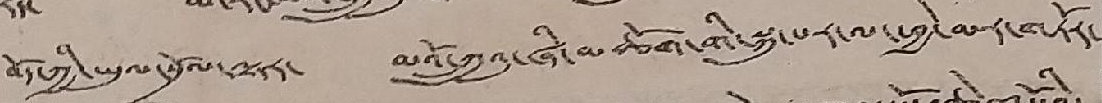བོད་ཀྱི་ཡུལ་སྲོལ་ལྟར་ མའོ་ཀྲུའུ་ཞི་མཆོག་གི་སྐུ་པར་ལ་ཕྱེ་མར་གཏོར་
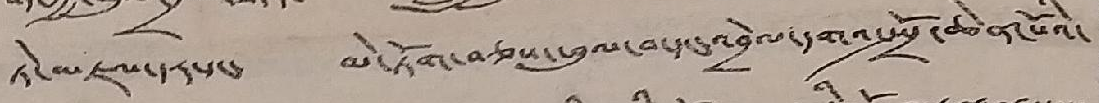ཏེ་མཇལ་དར་དང་ མེ་ཏོག་བཅས་ཕུལ་བ་དང་འབྲེལ་དགའ་སྤྲོ་ཆེན་པོའི་
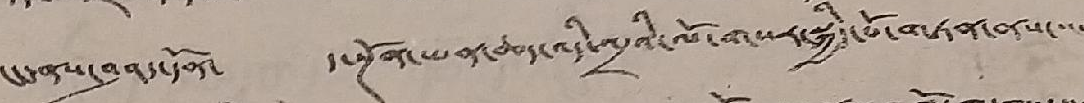ངང་ནས་བཤད་དོན་ ད་སྔོན་ཡན་ཆད་འདི་འདྲའི་ལོ་གསར་སྐྱིད་པོ་གཏན་ནས་་་་
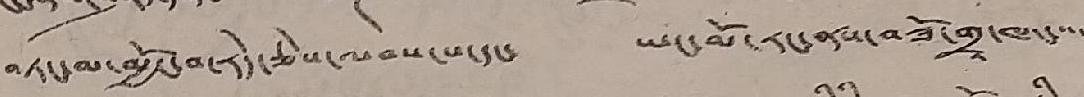བཏང་མ་མྱོང་བ་རེད་ཅེས་ལབས་པ་དང་ ཡང་མོ་རང་ནས་བཟོ་གྲྭ་ཁང་་་་
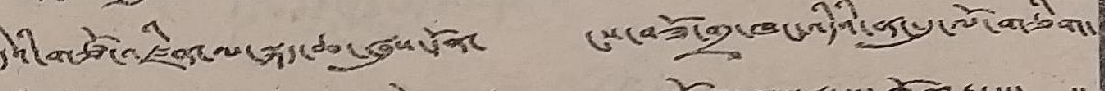དེའི་གཙོ་འཛིན་ལ་སྐད་ཆ་ཞུས་དོན་ ངས་བཟོ་གྲྭ་ཁང་འདིའི་ནང་དུ་ལོ་གཅིག་
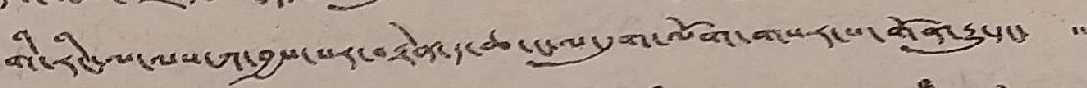གི་རིང་ལ་ལས་ཀ་བྱས་པར་བརྟེན་ད་ཆ་ང་ལ་དུག་ལོག་གསར་པ་གོན་རྒྱུ་དང་ ་་
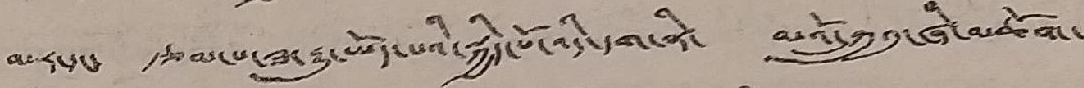མར་དང་ རྩམ་པ་ཟ་རྒྱུ་ཡོད་པའི་སྐྱིད་པོ་འདི་དག་ནི་ མའོ་ཀྲུའུ་ཞི་མཆོག་
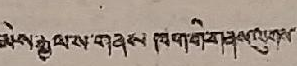མེས་རྒྱལ་ས་གནས་ཁག་གི་གནས་ལུགས་
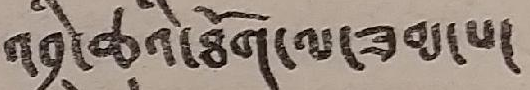འབྲི་ཆུའི་ཐོག་ལ་ཟམ་པ་
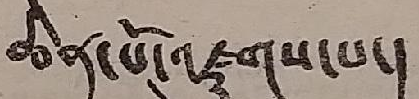ཆེན་པོ་འཛུགས་པ་།
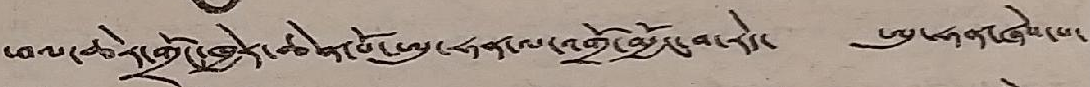ཕལ་ཆེར་གྲོང་ཁྱེར་ཆེན་པོ་ཨུ་ཧན་ལ་འགྲོ་མྱོང་བ་རེད་ ཨུ་ཧན་ཞེས་པ་
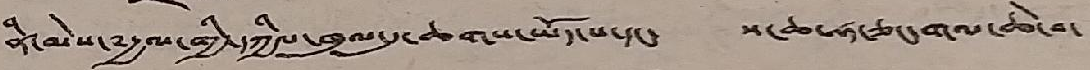ནི་མེས་༸རྒྱལ་གྱི་དཀྱིལ་ཁུལ་དུ་ཆགས་ཡོད་པ་དང་ ས་ཆ་ཧ་ཅང་གལ་ཆེ་བ་
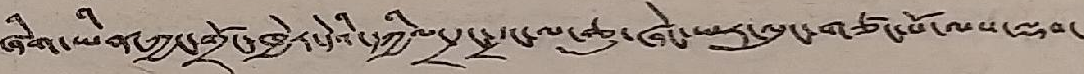ཞིག་ཡིན་ཀྱང་གྲོང་ཁྱེར་དེའི་དཀྱིལ་དྲང་དྲང་ལ་ཆུ་ཞེང་ཡར་ལུང་གཙང་པོ་ལས་ལྡབ་
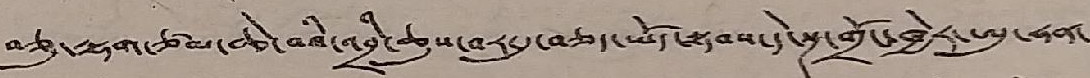བཅུ་ལྷག་ཙམ་ཆེ་བའི་འབྲི་ཆུས་བར་དུ་བཅད་ཡོད་སྟབས་དེ་སྔ་གྲོང་ཁྱེར་ཨུ་ཧན་
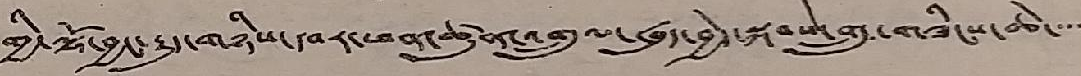གྱི་ལྷོ་བྱང་རྒྱུད་གཉིས་དབར་ཕན་ཚུན་འགྲུལ་ཞུད་བྱེད་སྐབས་གྲུ་གཟིངས་ཆེ་་་་
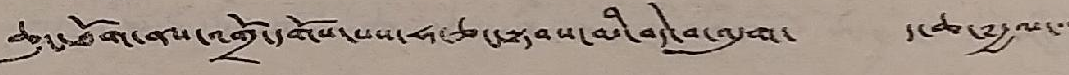ཆུང་ཐོག་ནས་འགྲོ་དགོས་པས་ཧ་ཅང་སྟབས་མི་བདེ་བ་འདུག་ ད་ཆ་༸རྒྱལ་་་
